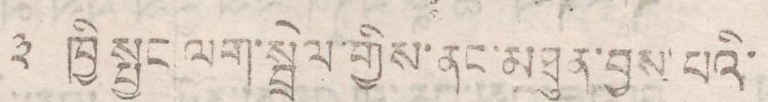༣ ཁྱི སྤྱང ལག་སྦྲེལ་གྱིས་ནང་མཐུན་བྱས་པའི་
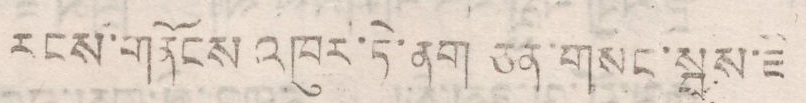རངས་གནོངས འཁུར་ཏེ་ནག ཅན་གསང་སྦས་ཇི
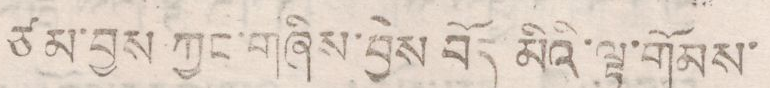ཙམ་བྱས ཀྱང་གཞིས་བྱེས བོད མིའི་ལྟ་གོམས་
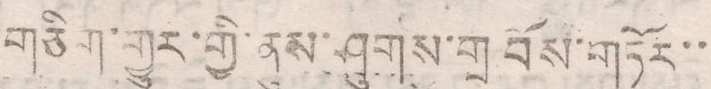གཅིག་གྱུར་གྱི་ནུས་ཤུགས་གྲ བོས་གཏོར་་
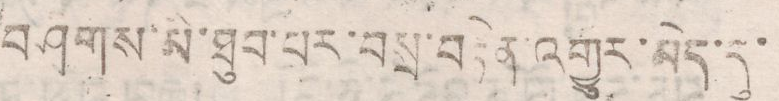གཤགས་མི་ཐུབ་པར་བསྲ་བརྟེན་འགྱུར་མེད་སུ་
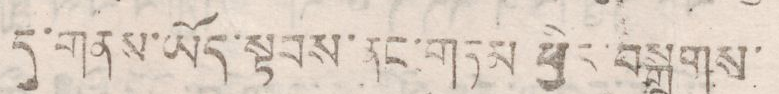དུ་གནས་ཡོད་སྟབས་ནང་གཏམ ཕྱིར་བསྒྲགས་
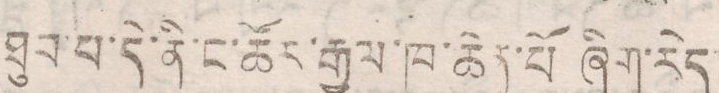ཐུན་པ་དེ་ནི་ང་ཚོར་རྒྱལ་ཁབ་ཆེན་པོ ཞིག་རེད
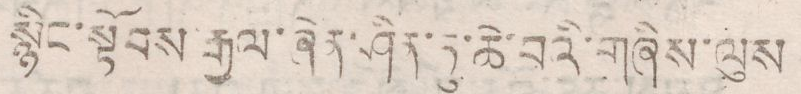སྙིང་སྟོབས་རྒྱལ་ཞེན་ཤིན་ཏུ་ཆེ་བའི་གཞིས་ལུས
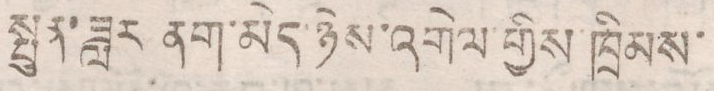སྤུན་ཟླར ནག་མེད་ཉེས་འགེལ་གྱིས་ཁྲིམས་
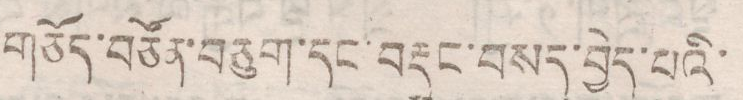གཅོད་བཙོན་བཅུག་དང་བརྡུང་བསད་བྱེད་པའི་
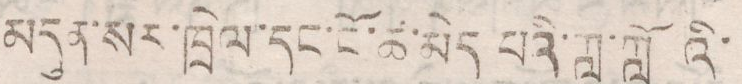མདུན་སར་ཁྲེལ་དང་ངོ་ཚ་མེད་པའི་ཀླ་ཀླའོ་
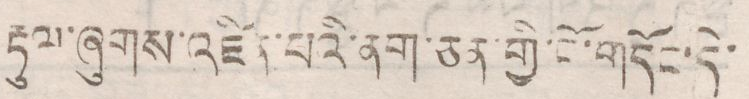རྟུལ་ཞུགས་འཛིན་པའི་ནག་ཅན་གྱི་ངོ་དགོང་དེ་
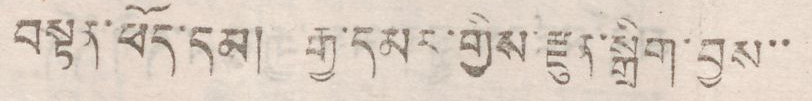བསྟན་ཕོད་དམ། རྒྱ་དམར་གྱིས་རྫུན་སྒྲིག་བྱས་་
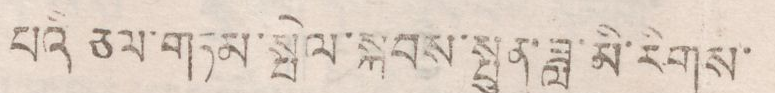པའི ཅལ་གཏམ་སྤེལ་སྐབས་སྤུན་ཟླ་མི་རིགས་
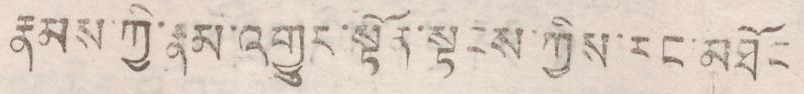རྣམས ཀྱི་རྣམ་འགྱུར་སྟོན་སྟངས་ཀྱིས་རང་མཐོང
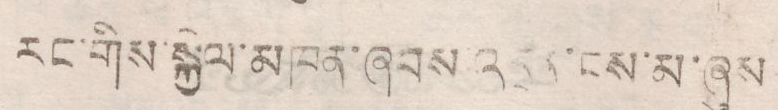རང་གིས་སྐྱེལ་མཁན་ཞབས་འདྲན་མ་ཞུས
